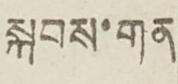སྐབས་གན
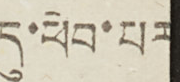དུ་ཕེབ་པར
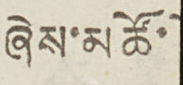ཞེས་མཚོ་
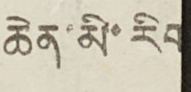ཆེན་མི་རིག
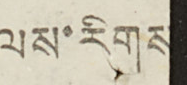ལས་རིགས་
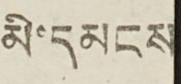མི་དམངས
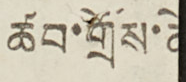ཚབ་གྲོས་
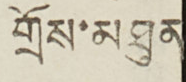གྲོས་མཐུན
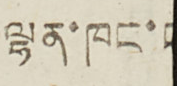ལྷན་ཁང་
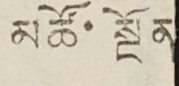མཚོ་སྔོན
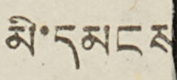མི་དམངས
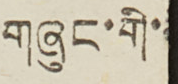གཞུང་གི་
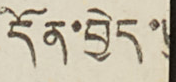དོན་བྱེད་
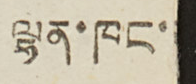ལྷན་ཁང་
